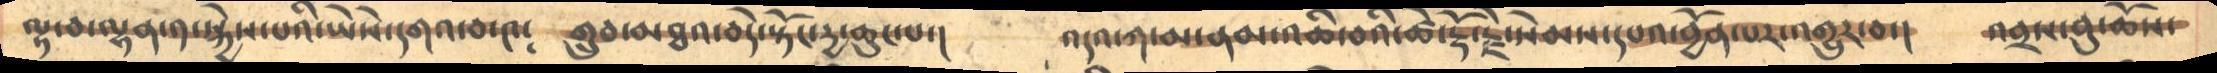ལྟ་བ་ལྷན་༡་སྐྱེས་པའི་ཡཻས་དགའ་བ་༤༴    གྲུབ་མཐའ་བདེ་སྟོང་དྱ་ཆུང་པ་།     འདའ་ཀ་མ་ནམ་འཆི་བའི་ཚེ་རྡོ་རྗེ་སེམས་དཔའ་བྱོན་པར་འགྱུར་བ་།   འབྲས་བུ་ཆོས་
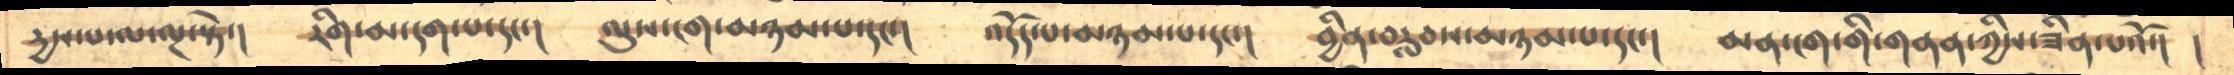དྱས་པ་ལ་ལྔ་སྟེ་།      རིག་མ་དག་པ་དང་།      ལུས་ངག་མཉམ་པ་དང་།       འདོད་པ་མཉམ་པ་དང་།     བྱིན་བརླབས་མཉམ་པ་དང་།    མན་ངག་གི་གནན་ཀྱིས་ཟིན་པའོ་།   །
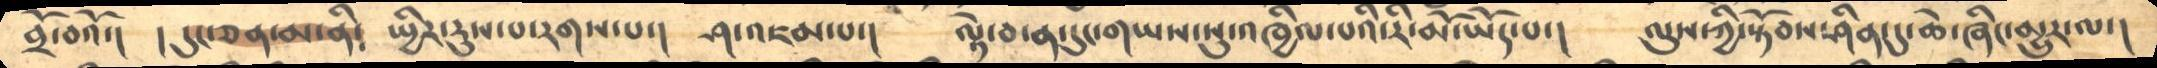བྲོ་བའོ་།    ། དུང་ཅན་མ་ནི༴     སྤྱིར་རུས་པ་རགས་པ་།    ཤ་འཇམ་པ་།        ལྟེ་བ་ན་དུང་གཡས་སུ་འཁྱིལ་པའི་རི་མོ་ཡོད་པ་།    ལུས་ཀྱི་སྟོབས་ཤིན་དུ་ཆེ་ཞིང་མྱུར་ལ་།
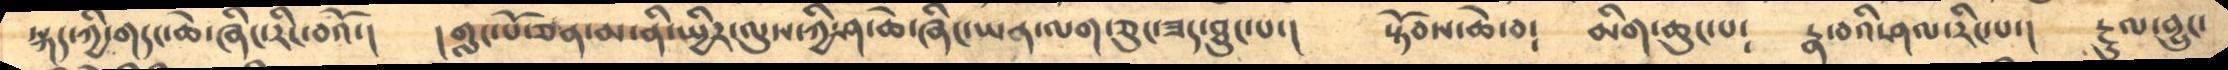སྐད་ཀྱི་གདང་ཆེ་ཞིང་རིང་བའོ་།      །གླང་པོ་ཅན་མ་ནི་སྤྱིར་ལུས་ཀྱི་ཤ་ཆེ་ཞིང་ཡན་ལག་ཅུང་ཟད་ཐུང་པ་།    སྟོབས་ཆེ་བ༴    མིག་ཆུང་པ༴    རྣ་བའི་ཤལ་རིང་པ་།    རྔུལ་བྱུང་
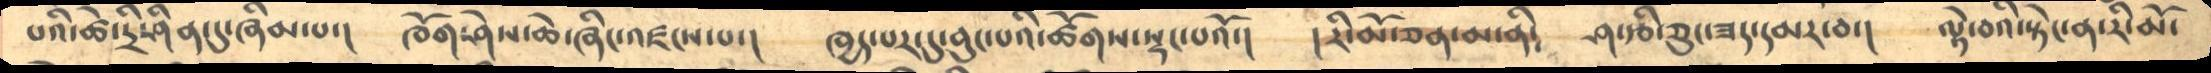པའི་ཚེ་དྲི་ཤིན་དུ་ཞིམ་པ་།    ཁོག་ཤེས་ཆེ་ཞིང་འཛངས་པ་།      ཁྱད་པར་དུ་བུང་པའི་ཚོགས་སྡང་པའོ་།    །རི་མོ་ཅན་མ་ནི༴     ཤ་རྩི་ཅུང་ཟད་དམར་བ་།    ལྟེ་བའི་སྟེང་ན་རི་མོ་
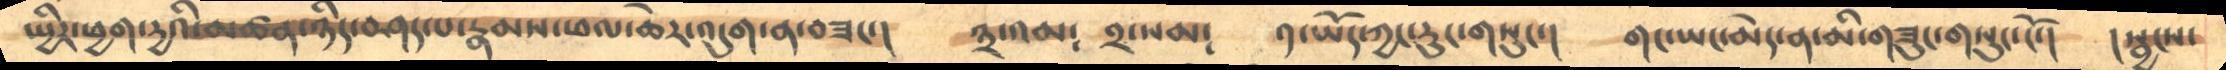སྤྱིར་ཕྱག་དྱའི་མཚན་ཉིད་བཤད་པ་རྣམས་ཕལ་ཆེར་འདུག་ན་བཟང་།     ༣་འམ༴  ༢་སམ༴     ༡་ཡོད་ཀྱང་རུང་གསུང་།    གང་ཡང་མེད་ན་མི་གཟུང་གསུང་ངོ་།     །སྦྱངས་
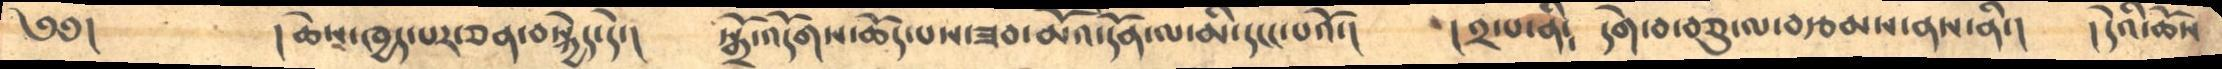༄༅།     །ཆེས་ཁྱད་པར་ཅན་བསྐྱེད་དེ་།      སྒྲོ་འདོགས་ཆོད་པས་ཟབ་མོའི་དོན་ལ་མི་དངང་པའོ་།      །༢་པ་ནི༴    དགེ་བ་བཅུ་ལ་བརྩམས་ནས་ནི་།    །དེའི་ཆོས
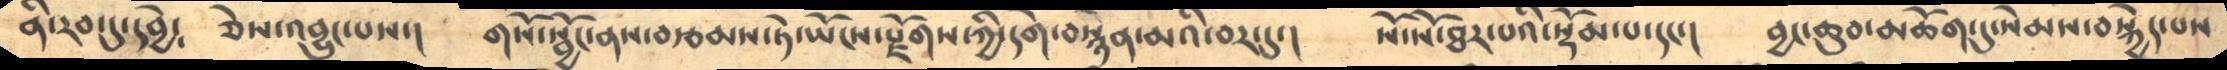ནི་རབ་དུ་དབྱེ༴     ཅེས་འབྱུང་པས་།      གསོ་སྦྱོང་ནས་བརྩམས་ཏེ་ཡོངས་རྫོགས་ཀྱི་དགེ་བསྙེན་མའི་བར་དུ་།    སོ་སོ་ཐར་པའི་སྡོམ་པ་དང་།    བྱང་ཆུབ་མཆོག་དུ་སེམས་བསྐྱེད་པས
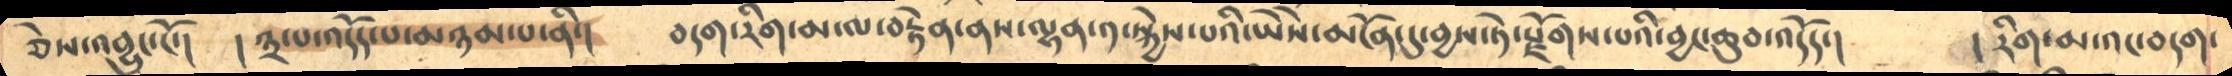ཅེས་འབྱུང་ངོ་།     །༣་པ་འདོད་པ་མཉམ་པ་ནི་།    བདག་རིག་མ་ལ་བརྟེན་ནས་ལྷན་༡་སྐྱེས་པའི་ཡཻས་མངོན་དུ་བྱས་ཏེ་རྫོགས་པའི་བྱང་ཆུབ་འདོད་།       །རིག་མ་འང་བདག་
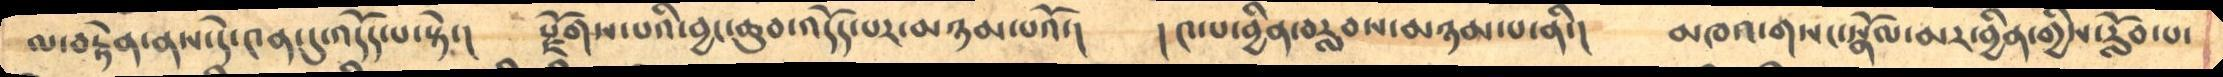ལ་བརྟེན་ནས་དེ་༤ན་དུ་འདོད་པ་སྟེ་།     རྫོགས་པའི་བྱང་ཆུབ་འདོད་པར་མཉམ་པའོ་།      །༤་པ་བྱིན་བརླབས་མཉམ་པ་ནི་།   མཁའ་གསང་སྣོལ་མར་བྱིན་གྱིས་རློབ་པ་
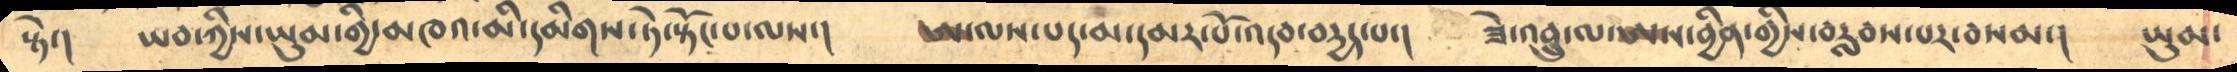སྟེ་།     ཡབ་ཀྱིས་ཡུམ་གྱི་མཁའ་མི་དམིགས་ཏེ་སྟོང་པ་ལས་།       ཨ་ལས་པད་མ་དམར་པོ་འདབ་བདྱད་པ་།    ཟེ་འབྲུ་ལ་ཨས་བྱིན་གྱིས་བརླབས་པར་བསམ་།     ཡུམ་
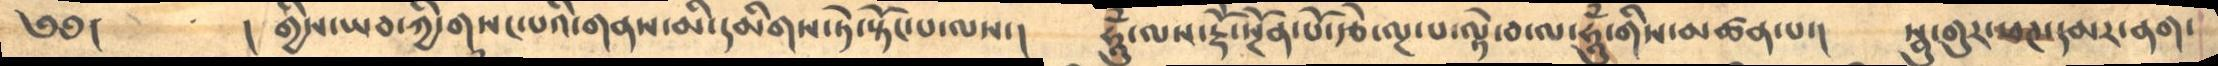༄༅།       ། གྱིས་ཡབ་ཀྱི་གསང་པའི་གནས་མི་དམིགས་ཏེ་སྟོང་པ་ལས་།      ཧཱུཾ་ལས་རྡོེ་སྔོན་པོ་རྩེ་ལྔ་པ་ལྟེ་བ་ལ་ཧཱུཾ་གིས་མཚན་པ་།      སྦུ་གུར་ཕཊ་དམར་ནག་
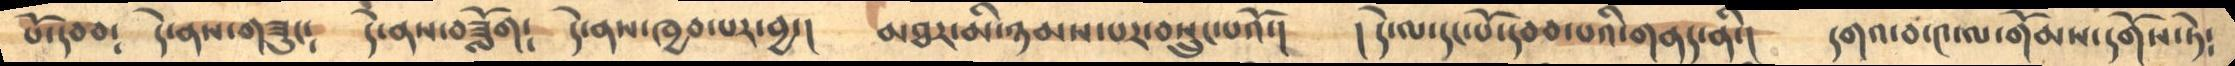པོ་དབབ༴    དེ་ནས་གཟུང༴     དེ་ནས་བཟློག༴    དེ་ནས་ཁྱབ་པར་བྱ་།      མཐར་མི་ཉམས་པར་བསྲུང་པའོ་།     ། དེ་ལ་དང་པོ་དབབ་པའི་གནད་ནི་།     དགའ་བ་༤་ལ་གོམས་དགོས་ཏེ༴
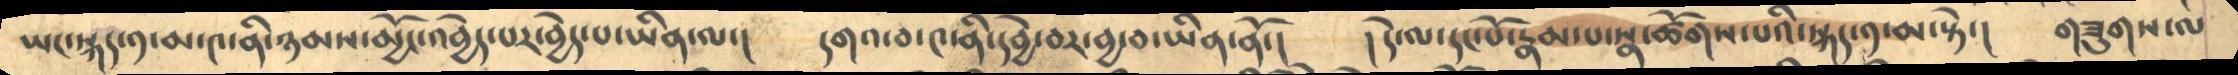ཡང་སྐད་༡་མ་༤་ནི་ཉམས་མྱོང་འབྱེད་པར་བྱེད་པ་ཡིན་ལ་།       དགའ་བ་༤་ནི་དབྱེ་བར་བྱ་བ་ཡིན་ནོ་།      །དེ་ལ་དང་པོ་རྣམ་པ་སྣ་ཚོགས་པའི་སྐད་༡་མ་སྟེ་།    གཟུགས་ལ
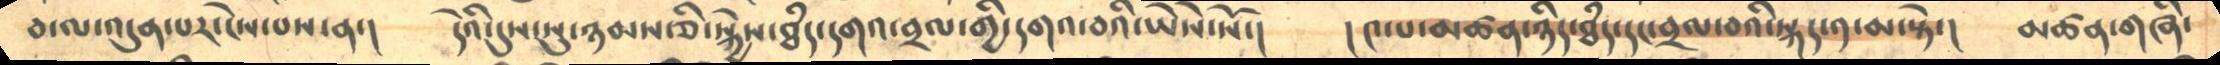བ་ལ་འདུན་པར་ངེས་པས་ན་།     དེའི་དུས་སུ་ཉམས་ཅི་སྐྱེས་ཐཾད་དགའ་བྲལ་གྱི་དགའ་བའི་ཡཻས་སོ་།      ། ༤་པ་མཚན་ཉིད་ཐཾད་དང་བྲལ་བའི་སྐད་༡་མ་སྟེ་།    མཚན་གཞི་
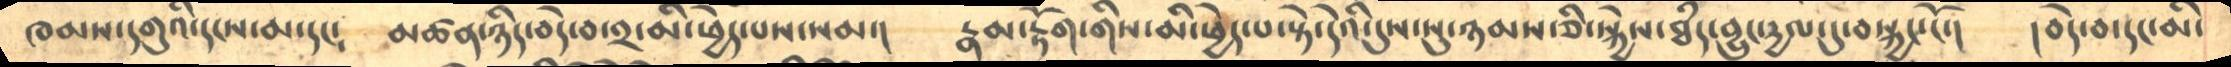ཁམས་དགུའི་དངས་མ་དང༴      མཚན་ཉིད་བདེ་བ་༢་མི་ཕྱེད་པས་སམ་།    རྣམ་རྟོག་གིས་མི་ཕྱེད་པ་སྟེ་དེའི་དུས་སུ་ཉམས་ཅི་སྐྱེས་ཐཾད་བྱུང་དྱལ་དུ་བསྐྱང་ངོ་།    །བདེ་བ་དང་མི་
